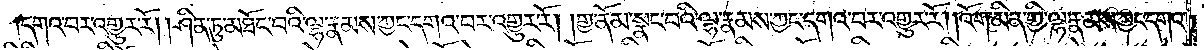དགའ་བར་འགྱུར་རོ། །ཤིན་ཏུ་མཐོང་བའི་ལྷ་རྣམས་ཀྱང་དགའ་བར་འགྱུར་རོ། །གྱ་ནོམ་སྣང་བའི་ལྷ་རྣམས་ཀྱང་དགའ་བར་འགྱུར་རོ། །འོག་མིན་གྱི་ལྷ་རྣམས་ཀྱང་དགའ་
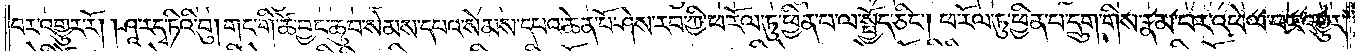བར་འགྱུར་རོ། །ཤཱ་ར་དྭ་ཏིའི་བུ། གང་གི་ཚེ་བྱང་ཆུབ་སེམས་དཔའ་སེམས་དཔའ་ཆེན་པོ་ཤེས་རབ་ཀྱི་ཕ་རོལ་ཏུ་ཕྱིན་པ་ལ་སྤྱོད་ཅིང༌། ཕ་རོལ་ཏུ་ཕྱིན་པ་དྲུག་གིས་རྣམ་པར་འཕེལ་བར་འགྱུར་
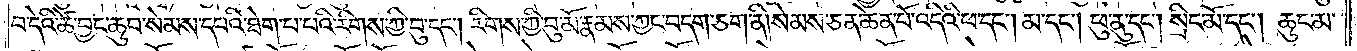བ་དེའི་ཚེ་བྱང་ཆུབ་སེམས་དཔའི་ཐེག་པ་པའི་རིགས་ཀྱི་བུ་དང༌། རིགས་ཀྱི་བུ་མོ་རྣམས་ཀྱང་བདག་ཅག་ནི། སེམས་ཅན་ཆེན་པོ་འདིའི་ཕ་དང༌། མ་དང༌། ཕུ་ནུ་དང༌། སྲིང་མོ་དང༌། ཆུང་མ་
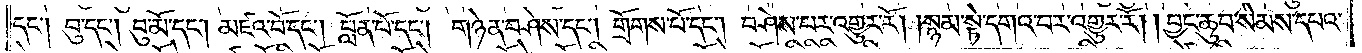དང༌། བུ་དང༌། བུ་མོ་དང༌། མཛའ་བོ་དང༌། བློན་པོ་དང༌། གཉེན་བཤེས་དང༌། གྲོགས་པོ་དང༌། བཤེས་པར་འགྱུར་རོ། །སྙམ་སྟེ་དགའ་བར་འགྱུར་རོ། །བྱང་ཆུབ་སེམས་དཔའ་
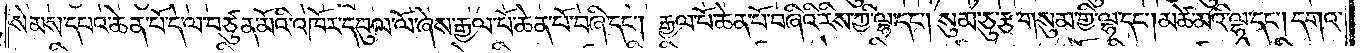སེམས་དཔའ་ཆེན་པོ་དེ་ལ་བཙུན་མོའི་འཁོར་དབུལ་ལོ་ཞེས་རྒྱལ་པོ་ཆེན་པོ་བཞི་དང༌། རྒྱལ་པོ་ཆེན་པོ་བཞིའི་རིས་ཀྱི་ལྷ་དང༌། སུམ་ཅུ་རྩ་གསུམ་གྱི་ལྷ་དང༌། མཚེ་མའི་ལྷ་དང༌། དགའ་
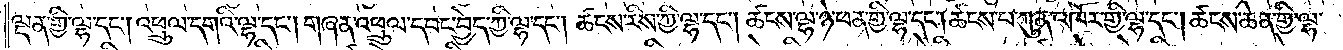ལྡན་གྱི་ལྷ་དང༌། འཕྲུལ་དགའི་ལྷ་དང༌། གཞན་འཕྲུལ་དབང་བྱེད་ཀྱི་ལྷ་དང༌། ཚངས་རིས་ཀྱི་ལྷ་དང༌། ཚངས་ལྷ་ཉེ་ཕན་གྱི་ལྷ་དང༌། ཚངས་པ་ཀུན་འཁོར་གྱི་ལྷ་དང༌། ཚངས་ཆེན་གྱི་ལྷ་
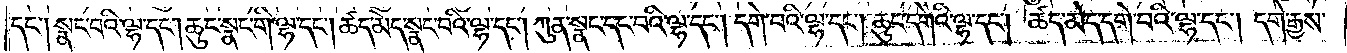དང༌། སྣང་བའི་ལྷ་དང༌། ཆུང་སྣང་གི་ལྷ་དང༌། ཚད་མེད་སྣང་བའི་ལྷ་དང༌། ཀུན་སྣང་དང་བའི་ལྷ་དང༌། དགེ་བའི་ལྷ་དང༌། ཆུང་དགེའི་ལྷ་དང༌། ཚད་མེད་དགེ་བའི་ལྷ་དང༌། དགེ་རྒྱས་
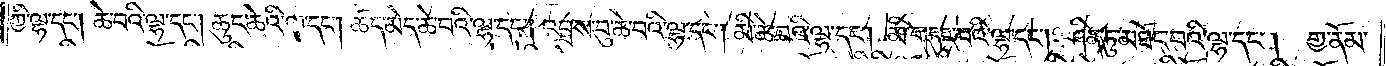ཀྱི་ལྷ་དང༌། ཆེ་བའི་ལྷ་དང༌། ཆུང་ཆེའི་ལྷ་དང༌། ཚད་མེད་ཆེ་བའི་ལྷ་དང༌། འབྲས་བུ་ཆེ་བའི་ལྷ་དང༌། མི་ཆེ་བའི་ལྷ་དང༌། མི་གདུང་བའི་ལྷ་དང༌། ཤིན་ཏུ་མཐོང་བའི་ལྷ་དང༌། གྱ་ནོམ་
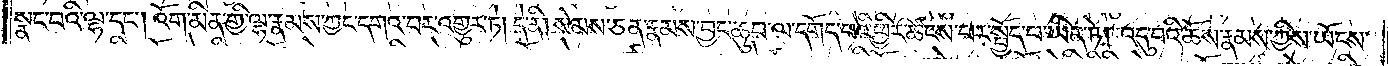སྣང་བའི་ལྷ་དང༌། འོག་མིན་གྱི་ལྷ་རྣམས་ཀྱང་དགའ་བར་འགྱུར་ཏེ། དེ་ནི། སེམས་ཅན་རྣམས་བྱང་ཆུབ་ལ་དགོད་པའི་ཕྱིར་ཚངས་པར་སྤྱོད་པ་ཡིན་ཏེ། འདུ་བའི་ཆོས་རྣམས་ཀྱིས་ཡོངས་
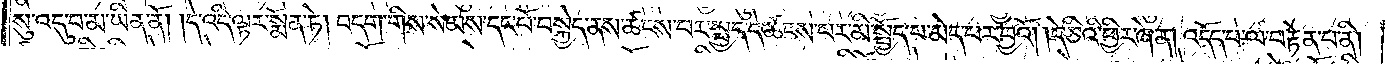སུ་འདུ་བ་མ་ཡིན་ནོ། །དེ་འདི་ལྟར་སྨོན་ཏེ། བདག་གིས་སེམས་དང་པོ་བསྐྱེད་ནས་ཚངས་པར་སྤྱད་དེ་ཚངས་པར་མི་སྤྱོད་པ་མེད་པར་བྱའོ། །དེ་ཅིའི་ཕྱིར་ཞེ་ན། འདོད་པ་ལ་བརྟེན་པ་ནི།
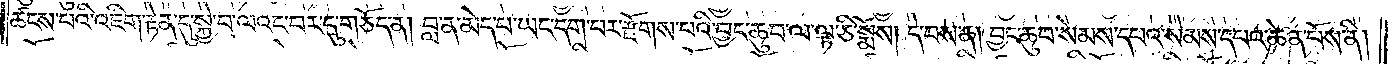ཚངས་པའི་འཇིག་རྟེན་དུ་སྐྱེ་བ་ལའང་བར་དུ་གཅོད་ན། བླ་ན་མེད་པ་ཡང་དག་པར་རྫོགས་པའི་བྱང་ཆུབ་ལ་ལྟ་ཅི་སྨོས། དེ་བས་ན། བྱང་ཆུབ་སེམས་དཔའ་སེམས་དཔའ་ཆེན་པོས་ནི།
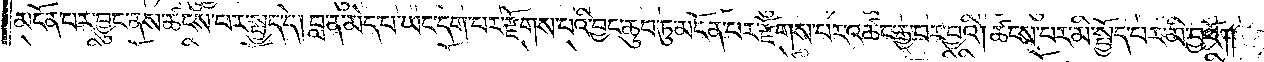མངོན་པར་བྱུང་ནས་ཚངས་པར་སྤྱད་དེ། བླ་ན་མེད་པ་ཡང་དག་པར་རྫོགས་པའི་བྱང་ཆུབ་ཏུ་མངོན་པར་རྫོགས་པར་འཚང་རྒྱ་བར་བྱའི། ཚངས་པར་མི་སྤྱོད་པར་མི་བྱའོ༎
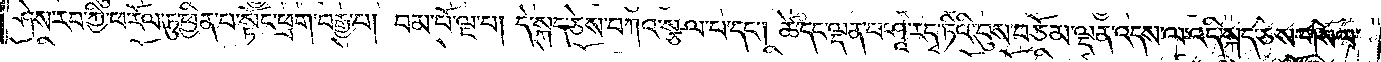ཤེས་རབ་ཀྱི་ཕ་རོལ་ཏུ་ཕྱིན་པ་སྟོང་ཕྲག་བརྒྱ་པ། བམ་པོ་ལྔ་པ། དེ་སྐད་ཅེས་བཀའ་སྩལ་པ་དང༌། ཚེ་དང་ལྡན་པ་ཤཱ་ར་དྭ་ཏིའི་བུས་བཅོམ་ལྡན་འདས་ལ་འདི་སྐད་ཅེས་གསོལ་
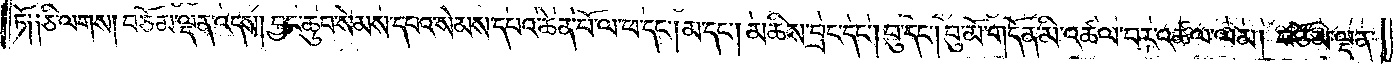ཏོ། །ཅི་ལགས། བཅོམ་ལྡན་འདས། བྱང་ཆུབ་སེམས་དཔའ་སེམས་དཔའ་ཆེན་པོ་ལ་ཕ་དང༌། མ་དང༌། མཆིས་བྲང་དང༌། བུ་དང༌། བུ་མོ་གདོན་མི་འཚལ་བར་འཚལ་ལམ། བཅོམ་ལྡན་
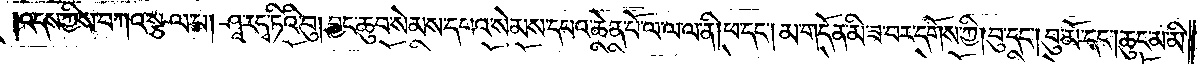འདས་ཀྱིས་བཀའ་སྩལ་པ། ཤཱ་ར་དྭ་ཏིའི་བུ། བྱང་ཆུབ་སེམས་དཔའ་སེམས་དཔའ་ཆེན་པོ་ལ་ལ་ལ་ནི། ཕ་དང༌། མ་གདོན་མི་ཟ་བར་དགོས་ཀྱི། བུ་དང༌། བུ་མོ་དང༌། ཆུང་མ་མི་
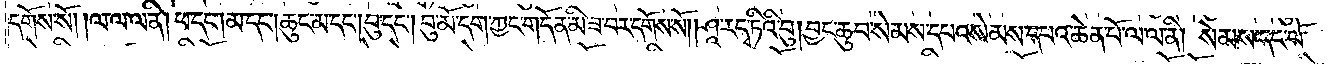དགོས་སོ། །ལ་ལ་ལ་ནི། ཕ་དང༌། མ་དང༌། ཆུང་མ་དང༌། བུ་དང༌། བུ་མོ་དག་ཀྱང་གདོན་མི་ཟ་བར་དགོས་སོ། །ཤཱ་ར་དྭ་ཏིའི་བུ། བྱང་ཆུབ་སེམས་དཔའ་སེམས་དཔའ་ཆེན་པོ་ལ་ལ་ནི། སེམས་དང་པོ་
